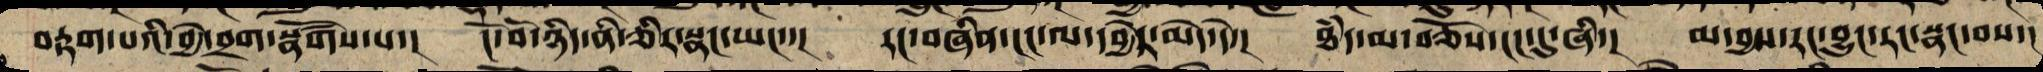བརྟག་པའི་བྱེ་བྲག་སྣཚོགས་པ་། ངོ་བོ་ཉིད་ནི་ཅིར་སྣང་ཡང་་། རང་བཞིན་ངང་ལ་དབྱེར་མེད་དེ་། ཐཾད་མ་བཅོས་ངང་དུ་ཞི་། མ་བྱས་རང་བྱུང་རང་སྣང་བས་།
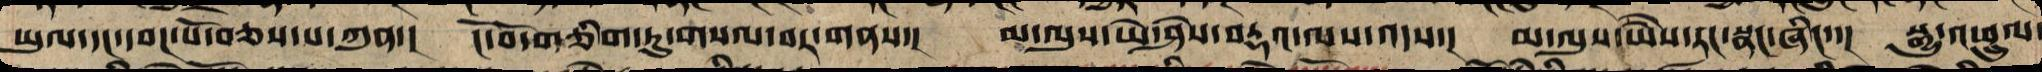ཡུལ་དང་དབང་པོར་བཅས་པ་ཀུན་། ངོ་བོ་གཅིག་ཏུ་གསལ་བར་གནས་། མ་ལུས་ཡེ་ཤེས་བརྡའ་ལས་འདས་། མ་ལུས་ཡཻས་རང་སྣང་ཞིང་་། སྒྱུ་འཕྲུལ་
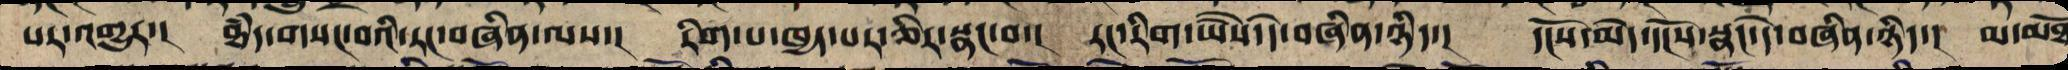པར་གྱུར་། ཐཾད་གསང་བའི་རང་བཞིན་ལས་། རིག་པའི་ཁྱད་པར་ཅིར་སྣང་བ་། རང་རིག་ཡཻས་དེ་བཞིན་ཉིད་། དངོས་མེད་དངོས་སྣང་དེ་བཞིན་ཉིད་། མ་མཐོ
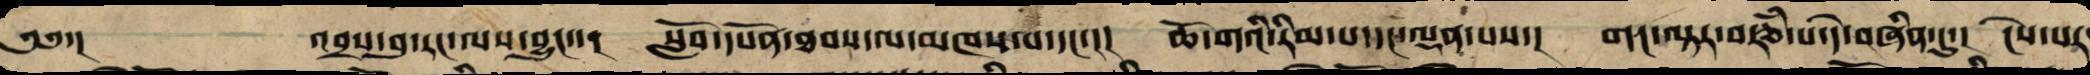༄༅་། འབྲས་བུ་རང་ལས་འབྱུང་་། སློབ་དཔོན་ཐབས་ལ་མཁས་པ་དང་་། ཆོ་གའི་རིམ་པ་དང་ལྡན་པས་། གང་ལྟར་བརྩཾ་པ་དེ་བཞིན་དུ་། ངེས་པར
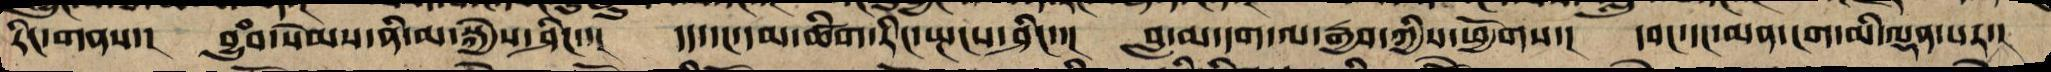རིང་གནས་། བྱུཾབ་སེམས་ནི་མ་སྐྱེས་ཤིང་་། དད་དང་དམ་ཚིག་རིང་སྤངས་ཤིང་་། བླ་མ་དག་ལ་རྒྱབ་ཀྱིས་ཕྱོགས་། དབང་དང་མན་ངག་མི་ལྡན་པར་།
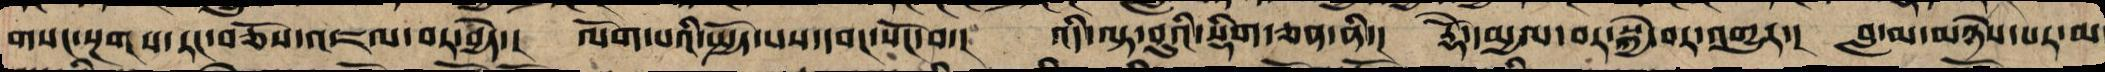གསང་སྔགས་རང་བཅོས་འཇལ་བར་བྱེད་། ལོག་པའི་སྤྱོད་པའི་དབང་སོང་བ་། འདི་ལྟ་བུའི་སྡིག་ཅན་ནི་། རྡོེ་དམྱལ་བར་སྐྱེ་བར་འགྱུར་། བླ་མ་མཉེས་པར་མ་
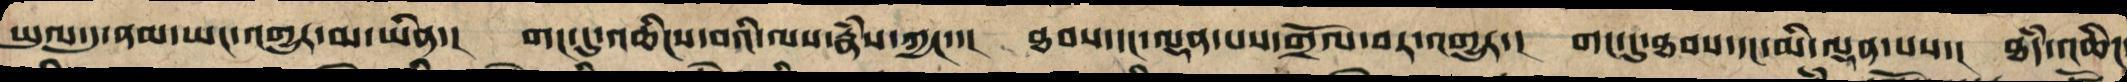ཡུལ་དུ་ནམ་ཡང་འགྱུར་མ་ཡིན་། གང་དུ་འཆིང་བའི་ལས་རྣཾས་ཀྱང་་། ཐབས་དང་ལྡན་པས་གྲོལ་བར་འགྱུར་། གང་དུ་ཐབས་དང་མི་ལྡན་པས་། ཐཾད་འཆིང
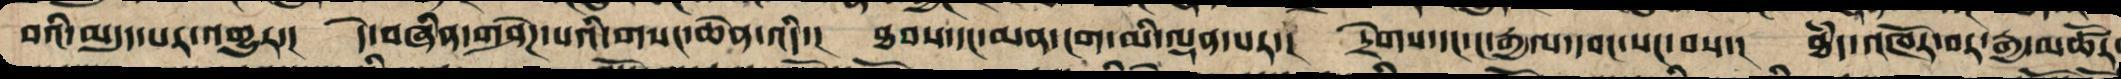བའི་མདུད་པར་འགྱུར་། དེ་བཞིན་གཤེཌ་པའི་གསང་ཆེན་འདི་། ཐབས་དང་མན་ངག་མི་ལྡན་པར་། དྲེགས་དང་ང་རྒྱལ་དབང་སང་བས་། ཐཾད་འཁོར་བའི་རྒྱ་མཚོར
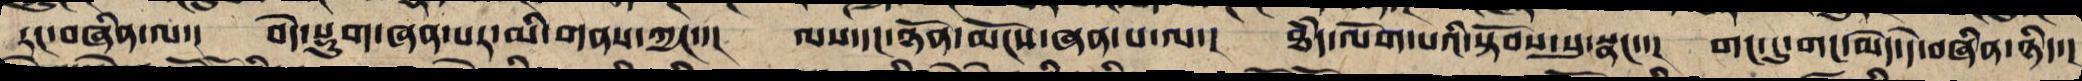རང་བཞིན་ལ་། བདེ་སྡུག་ཞན་པར་མི་གནས་ཀྱང་་། ལས་དང་ཉོན་མོངས་ཞན་པ་ལ་། ཐཾད་ལོག་པའི་སྟོབས་སུ་སྣང་་། གང་དུ་གང་མེད་དེ་བཞིན་ཉིད་།
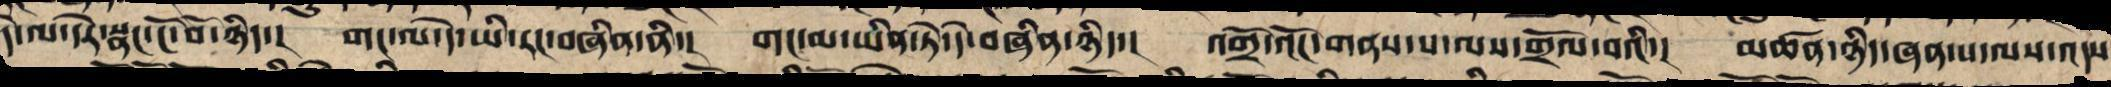དེ་ལ་དེར་སྣང་ངོ་བོ་ཉིད་། གང་ལ་དེ་ཡི་རང་བཞིན་ནི་། གང་མ་ཡིན་ཏེ་དེ་བཞིན་ཉིད་། འགྲོ་འོང་གནས་པ་ལས་གྲོལ་བའི་། མཚན་ཉིད་ཞན་པ་ལས་འདས
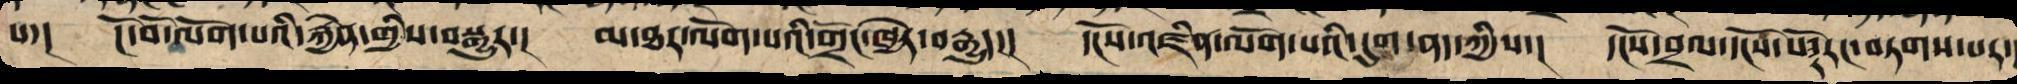པ་། ངོ་བོ་ལོག་པའི་རྐྱེན་གྱིས་བསྒྱུར་། ཐ་མར་ལོག་པའི་གྲོང་ཁྱེར་བརྒྱུད་། དངོས་འཛིན་ལོག་པའི་དུག་ནད་ཀྱིས་། དངོས་བྲལ་དངོས་པོར་རང་བཏགས་པར་
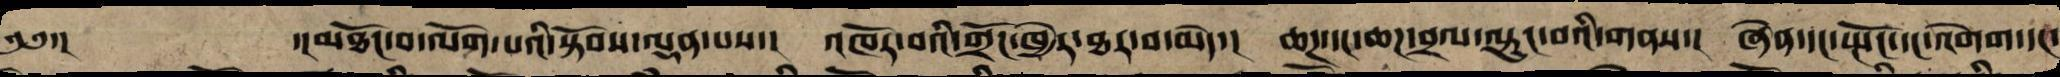༄༅་། ་།མཐོང་བ་ལོག་པའི་སྟོབས་ལྡན་པས་། འཁོར་བའི་གྲོང་ཁྱེར་ཐར་པ་མེད་། ཆཌ་དང་ཆཌ་བྲལ་ལྟུང་བའི་གནས་། ཞེན་དང་སྤང་དང་འགེག་དང་
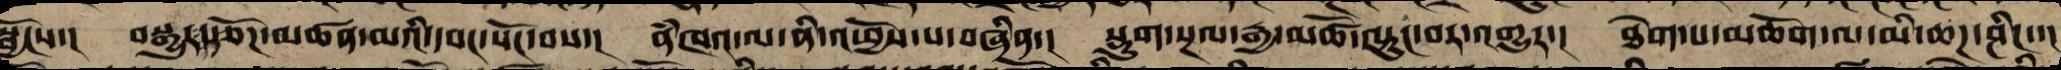སྦྱོང་་། བསྒྱུར་རྩོཌ་མཚན་མའི་དབང་སོང་བས་། ནཾཁའ་ལ་ནི་འཕྱོས་པ་བཞིན་། སྡུག་བསྔལ་རྒྱ་མཚོ་ལྟུང་བར་འགྱུར་། ཐེག་པ་མཆོག་ལ་མི་ཆཌ་ཤིང་་།
